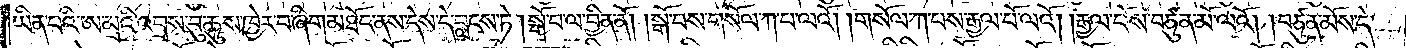ཡིན་པའི་ཨ་མྲའི་འབྲས་བུ་ཆུས་ཁྱེར་བ་ཞིག་མཐོང་ནས་དེས་དེ་བླངས་ཏེ།སྒོ་བ་ལ་བྱིན་ནོ། །སྒོ་བས་གསོལ་ཀ་པ་ལའོ། །གསོལ་ཀ་པས་རྒྱལ་པོ་ལའོ། །རྒྱལ་པོས་བཙུན་མོ་ལའོ། །བཙུན་མོས་དེ་
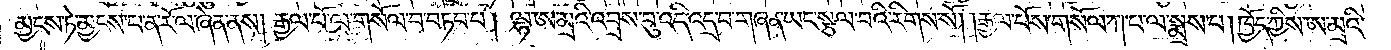མྱངས་ཏེ་མྱངས་པ་ན་རོལ་ཞེན་ནས། རྒྱལ་པོ་ལ་གསོལ་པ་བཏབ་པ། ལྷ་ཨ་མྲའི་འབྲས་བུ་འདི་འདྲ་བ་གཞན་ཡང་སྩལ་པའི་རིགས་སོ། །རྒྱལ་པོས་གསོལ་ཀ་པ་ལ་སྨྲས་པ། ཁྱོད་ཀྱིས་ཨ་མྲའི་
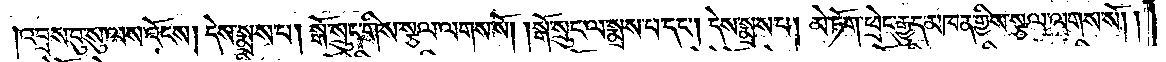འབྲས་བུ་སུ་ལས་འོངས། དེས་སྨྲས་པ། སྒོ་སྲུང་གིས་སྩལ་ལགས་སོ། །སྒོ་སྲུང་ལ་སྨྲས་པ་དང༌། དེས་སྨྲས་པ། མེ་ཏོག་ཕྲེང་རྒྱུད་མཁན་གྱིས་སྩལ་ལགས་སོ། །
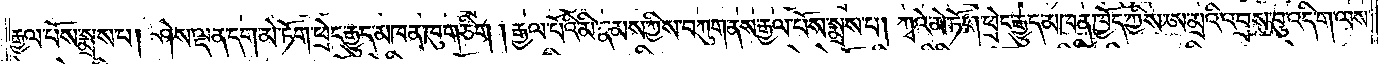རྒྱལ་པོས་སྨྲས་པ། ཤེས་ལྡན་དག་མེ་ཏོག་ཕྲེང་རྒྱུད་མཁན་ཁུག་ཅིག །རྒྱལ་པོའི་མི་རྣམས་ཀྱིས་བཀུག་ནས་རྒྱལ་པོས་སྨྲས་པ། ཀྭའེ་མེ་ཏོག་ཕྲེང་རྒྱུད་མཁན་ཁྱོད་ཀྱིས་ཨ་མྲའི་འབྲས་བུ་འདི་ག་ལས་
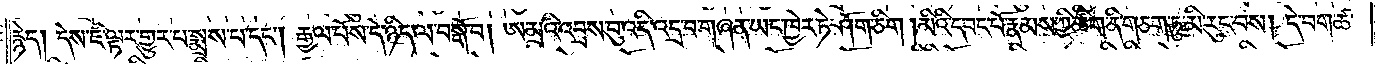རྙེད། དེས་ཇི་ལྟར་གྱུར་པ་སྨྲས་པ་དང༌། རྒྱལ་པོས་དེ་ཉིད་ལ་བསྒོ་བ། ཨ་མྲའི་འབྲས་བུ་འདི་འདྲ་བ་གཞན་ཡང་ཁྱེར་ཏེ་ཤོག་ཅིག །མིའི་དབང་པོ་རྣམས་ཀྱི་ཚིག་ནི་གཅིག་ཏུ་མི་རུང་བས། དེ་བག་ཚ་
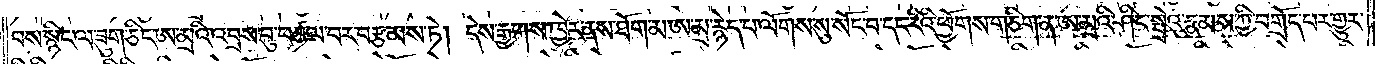བས་སྙིང་ལ་ཟུག་ཅིང་ཨ་མྲའི་འབྲས་བུ་བཙལ་བར་བརྩམས་ཏེ། དེས་རྒྱགས་ཁྱེར་ནས་ཐོག་མ་ཨ་མྲ་རྙེད་པ་ལོགས་སུ་སོང་བ་དང་རིའི་ཕྱོགས་གཅིག་ན་ཨ་མྲའི་ཤིང་སྤྲེའུ་རྣམས་ཀྱི་བགྲོད་པར་གྱུར་
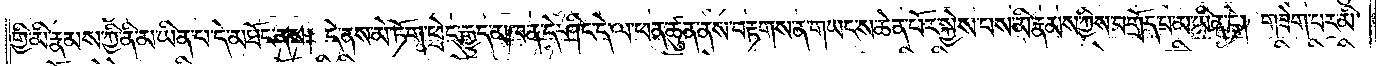གྱི་མི་རྣམས་ཀྱི་ནི་མ་ཡིན་པ་དེ་མཐོང་ནས། དེ་ནས་མེ་ཏོག་ཕྲེང་རྒྱུད་མཁན་དེ་ཤིང་དེ་ལ་ཕན་ཚུན་ནས་བརྟགས་ན་གཡང་ས་ཆེན་པོར་སྐྱེས་པས་མི་རྣམས་ཀྱིས་བགྲོད་པ་མ་ཡིན་ཏེ། གཟེག་པར་མི་
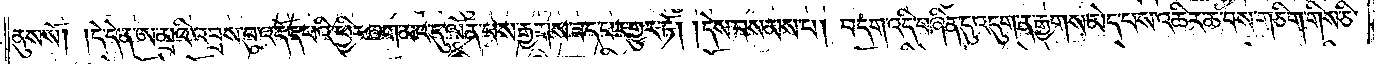ནུས་སོ། །དེ་དེ་ན་ཨ་མྲའི་འབྲས་བུ་འདོད་པའི་ཕྱིར་ཞག་མང་དུ་ལོན་པས་རྒྱགས་ཟད་པར་གྱུར་ཏོ། །དེས་བསམས་པ། བདག་འདི་བཞིན་དུ་འདུག་ན་རྒྱགས་མེད་པས་འཆིར་ཆ་བས་གཅིག་གིས་ཅི་
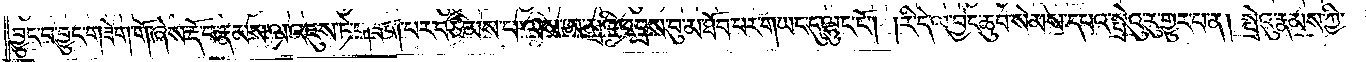བྱུང་བ་བྱུང་གཟེག་གོ་ཞེས་རྡོ་བ་རྣམས་ལ་འཇུས་ཏེ་གཟེག་པར་བཙམས་པ་ལས་ཨ་མྲའི་འབྲས་བུ་མ་ཐོབ་པར་གཡང་དུ་ལྷུང་ངོ༌། །རི་དེ་ལ་བྱང་ཆུབ་སེམས་དཔའ་སྤྲེའུ་རུ་གྱུར་པ་ན། སྤྲེའུ་རྣམས་ཀྱི་
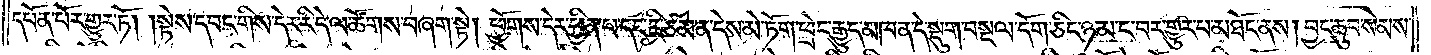དཔོན་པོར་གྱུར་ཏོ། །སྟེས་དབང་གིས་དེར་རི་དེ་ལ་ཚོགས་བཞག་སྟེ། ཕྱོགས་དེར་ཕྱིན་པ་དང་ཇི་ཙམ་ན་དེས་མེ་ཏོག་ཕྲེང་རྒྱུད་མཁན་དེ་སྡུག་བསྔལ་དོག་ཅིང་ཉམ་ང་བར་གྱུར་པ་མཐོང་ནས། བྱང་ཆུབ་སེམས་
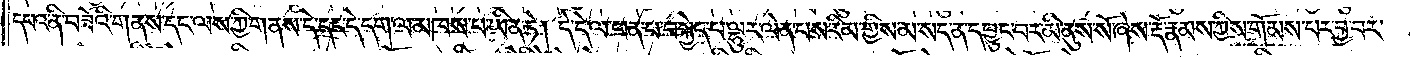དཔའ་ནི་བཟོའི་གནས་དང་ལས་ཀྱི་གནས་དེ་དང་དེ་དག་ལ་མཁས་པ་ཡིན་ཏེ། དེ་དེ་ལ་ཕན་པ་བསྐྱེད་པ་ལྷུར་ལེན་པས་རིམ་གྱིས་མ་སད་ན་དབྱུང་བར་མི་ནུས་སོ་ཞེས་རྡོ་རྣམས་ཀྱིས་གོམས་པར་བྱ་བར་
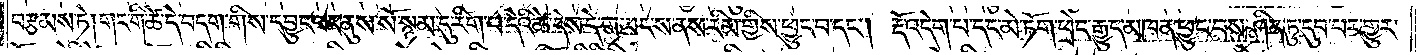བརྩམས་ཏེ། གང་གི་ཚེ་དེ་བདག་གིས་དབྱུང་བར་ནུས་སོ་སྙམ་དུ་རིག་པ་དེའི་ཚེ་དེས་དེ་གཡང་ས་ནས་རིམ་གྱིས་ཕྱུང་བ་དང༌། རྡོ་འདེག་པ་དང་མེ་ཏོག་ཕྲེང་རྒྱུད་མཁན་ཕྱུང་བས་ཤིན་ཏུ་དུབ་པར་གྱུར་
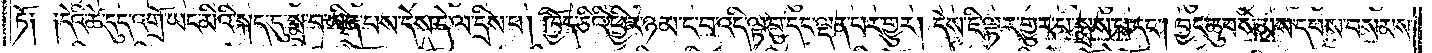ཏོ༑ ༑དེའི་ཚེ་དུད་འགྲོ་ཡང་མིའི་སྐད་དུ་སྨྲ་བ་ཡིན་པས་དེས་དེ་ལ་དྲིས་པ། ཁྱོད་ཅིའི་ཕྱིར་ཉམ་ང་བ་འདི་ལྟ་བུ་དང་ལྡན་པར་གྱུར། དེས་ཇི་ལྟར་གྱུར་པ་སྨྲས་པ་དང༌། བྱང་ཆུབ་སེམས་དཔས་བསམས་
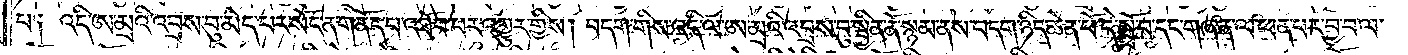པ༑ འདི་ཨ་མྲའི་འབྲས་བུ་མེད་པར་སོང་ན་གནོད་པ་འཐོབ་པར་འགྱུར་གྱིས། བདག་གིས་འདི་ལ་ཨ་མྲའི་འབྲས་བུ་སྦྱིན་ནོ་སྙམ་ནས་བདག་ཉིད་ཆེན་པོ་དེ་སྤྲོ་བ་དང་གཞན་ལ་ཕན་པར་བྱ་བ་ལ་
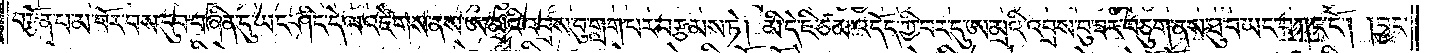བརྩོན་པ་མ་བོར་བས་དུབ་བཞིན་དུ་ཡང་ཤིང་དེ་ལ་འཛེགས་ནས་ཨ་མྲའི་འབྲས་བུ་གླག་པར་བརྩམས་ཏེ། མི་དེ་ཇི་ཙམ་འདོད་ཀྱི་བར་དུ་ཨ་མྲའི་འབྲས་བུ་ཟར་བཅུག་ནས་ཐུ་བ་ཡང་བཀང་ངོ༌། །བྱང་
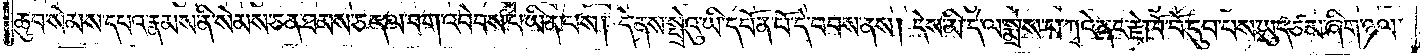ཆུབ་སེམས་དཔའ་རྣམས་ནི་སེམས་ཅན་ཐམས་ཅད་ལ་བག་འབེབས་པ་ཡིན་པས། དེ་ནས་སྤྲེའུ་ཡི་དཔོན་པོ་དེ་བབས་ནས། དེས་མི་དེ་ལ་སྨྲས་པ་ཀྭའེ་ནང་རྗེ་ཁོ་བོ་དུབ་པས་ཡུད་ཙམ་ཞིག་ཉལ་
